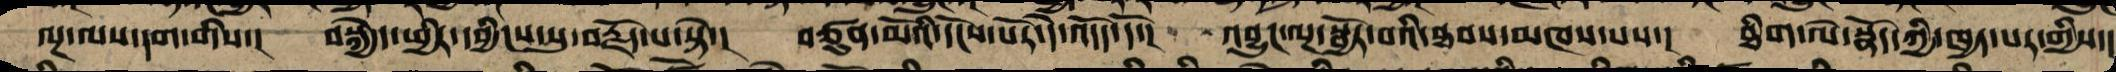ལྔ་ལས་དག་གིས་། བསྐྱེད་ཕྱིར་དབྱིངས་སུ་བརྗོད་པ་སྟེ་། བཙུན་མོའི་དངོས་པོར་དེ་འདོད་དོ་། འབྱུང་ལྔ་སྦྱོར་བའི་ཐབས་མཁས་པས་། ཐིག་ལེ་སྣོད་ཀྱི་ཁྱད་པར་གྱིས་།
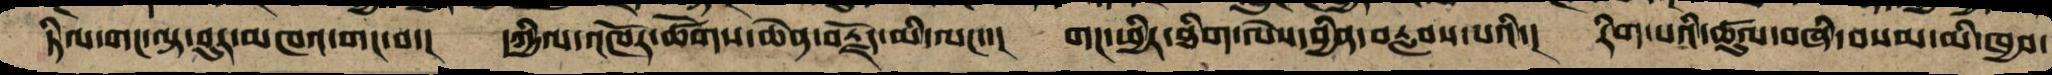ཏིལ་གང་ལྟ་བུར་མཁའ་གང་བ་། དཀྱིལ་འཁོར་ཚོགས་ཆེན་བརྗོད་མི་ལང་་། གང་ཕྱིར་ཐིག་ལེས་བྱིན་བརླབས་པའི་། རིག་པའི་ཚུལ་བཞི་བསམ་མི་ཁྱབ་
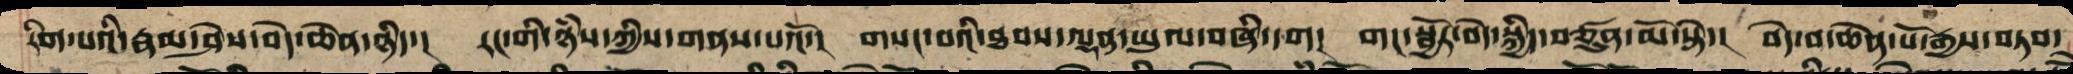རིག་པའི་རྣམ་ཤེས་བདེ་ཆེན་ཉིད་། རང་གི་ཉཾས་ཀྱིས་གནས་པའོ་། གསང་བའི་ཐབས་ལྡན་ཡུལ་བཞི་དག། གང་སྦྱོར་བདེ་སྐྱེད་བཙུན་མོ་སྟེ་། བདེ་བ་ཆེན་པོར་རྒྱས་བཏབ་
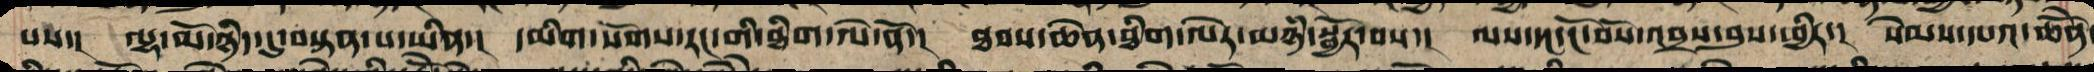པས་། ལྷ་མོ་ཉིད་དུ་བསྟན་པ་ཡིན་། དམིག་སོགས་རང་གི་ཐིག་ལེ་ནོ་། ཐབས་ཆེན་ཐིག་ལེར་མཉཾ་སྦྱོར་བས་། ལས་དང་ངོ་བོ་འབྲས་བུའི་ཕྱིར་། སེམས་དཔའ་ཆེནོ་
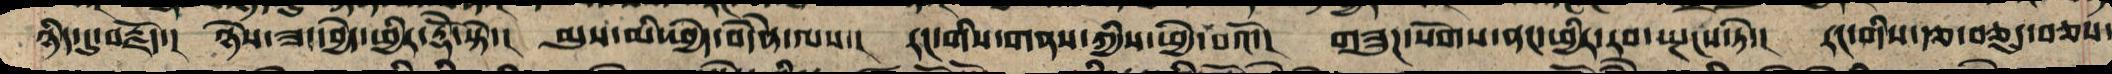ཉིད་དུ་བརྗོད་། ཉེས་ཟད་བྱེད་ཕྱིར་རྡོེ་སྟེ་། མུས་མི་ཕྱེད་བདཻན་ལས་། རང་གི་གནས་ཀྱིས་ཕྱེ་བའོ་། གཟུཌ་སོགས་ནང་ཕྱིར་རབ་སྤངས་ཏེ་། རང་གི་རྩ་བཅུད་བཅས་
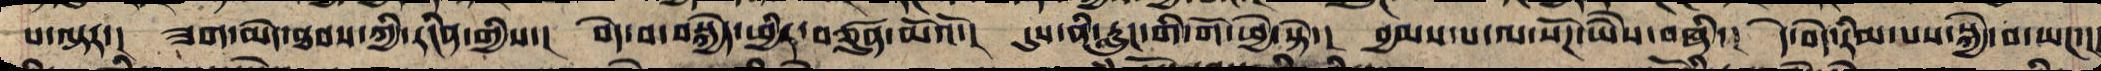པ་ལྟར་། ཟག་མེད་ཐབས་ཀྱི་རངིན་གྱིས་། བདེ་བ་བསྐྱེད་ཕྱིར་བཙུན་མོའོ་། དུས་ནི་རླུང་གི་གོ་ཕྱེ་སྟེ་། བྱམས་པ་ལ་སོཌ་ཡཻས་བཞི་། དེ་བདེ་རིམ་པས་སྐྱེ་བ་ཡང་།
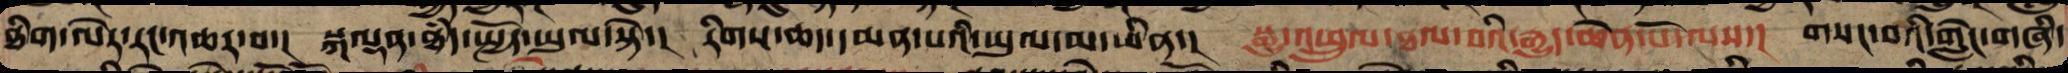ཐིག་ལེར་རང་འཆར་བ་། སྐལྡན་ཐཾད་སྤྱོད་ཡུལ་སྟེ་། རིགས་ཆད་དམན་པའི་ཡུལ་མ་ཡིན་། སྒྱུ་འཕྲུལ་ཐལ་བའི་རྒྱུད་ཆེན་པོ་ལས་། གསང་བའི་གླེང་གཞི་
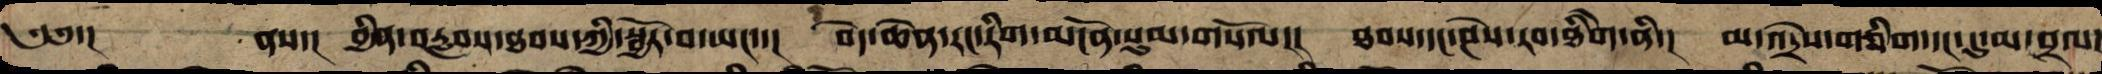༄༅་། ནས་། བྱིན་རླབས་ཐབས་ཀྱི་སྦྱོར་བ་ཡང་་།  བདེ་ཆེན་རང་རིག་མངོན་སུམ་གསལ་།  ཐབས་དང་ཤེས་རབ་ཐིགེ་ནི་།  མ་འདྲེས་གཅིག་དང་དུ་མ་བྲལ་
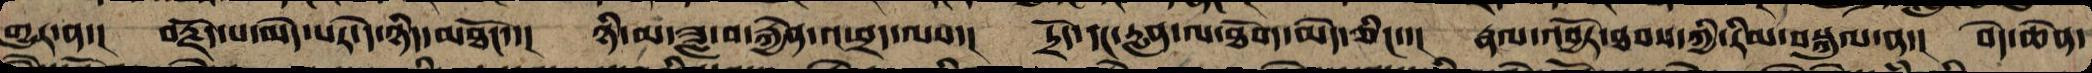གྱུར་ན་། བརྗོད་པ་མེད་པ་དེ་ཉིད་མཐོང་་། ཉི་མ་ཟླ་བ་རྐྱེན་ཕྲད་ལས་། དྲོད་དང་རླན་ལ་ཐོགས་མེད་ཅིང་་། རྣལ་འབྱོར་ཐབས་ཀྱི་རིམ་བསྐུལ་ན་། བདེ་ཆེན་
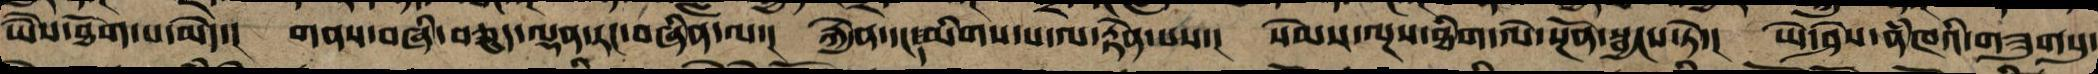ཡཻས་ཐོགས་པ་མེད་། གནས་བཞི་བཅུད་ལྡན་རང་བཞིན་ལ་། རྐྱེན་དང་དམིགས་པ་ལ་རྟེན་པས་། སེམས་ལྔས་ཐིག་ལེ་སྔོན་སྦྱངས་ཏེ་། ཡེ་ཤེས་ནཾཁའི་གཟུགསུ་
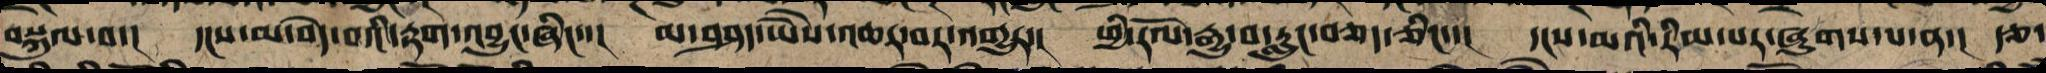བསྐུལ་བ་། དངས་མ་བདེ་བའི་རྟགས་འབྱུང་ཞིང་་། མ་བཤད་ཡཻས་འཆར་བར་འགྱུར་། ཕྱི་རོལ་རྒྱུ་བ་རླུང་བཅད་ཅིང་་། དངས་མ་རིམ་པར་ཞུགས་པ་ན་། རྩ་
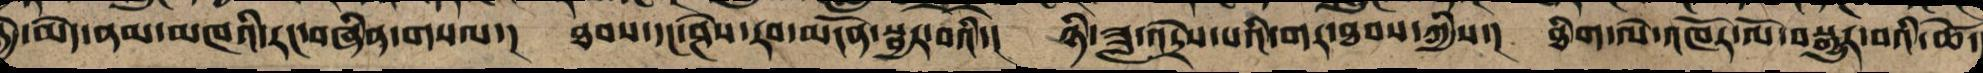སྐྱེ་མཆེད་ནམ་མཁའི་རང་བཞིན་གསལ་། ཐབས་དང་ཤེས་རབ་མངོན་སྦྱར་བའི་། ཉི་ཟླ་འདྲེས་པའི་གར་ཐབས་ཀྱིས་། ཐིག་ལེ་འཁོར་ལོ་བསྒྱུར་བའི་ཚེ་
